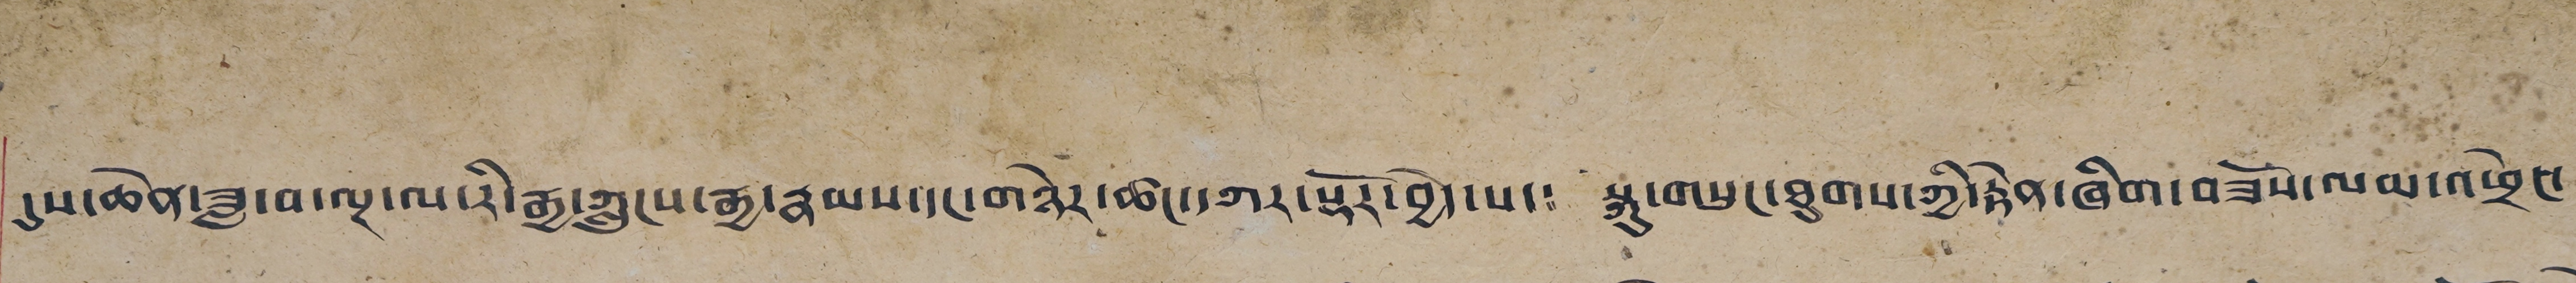དུས་ཆེན་ཟླ་བ་ལྔ་ལ་རི་རྒྱ་ཀླུངས་རྒྱ་རྣམས་དང་གཉེར་ཚང་དཀར་སྟོར་བྱེད་པ་༴ སྐུ་གསུང་ཐུགས་གྱི་རྟེན་ཞིག་བཟོས་ལབ་འཕྲེང་
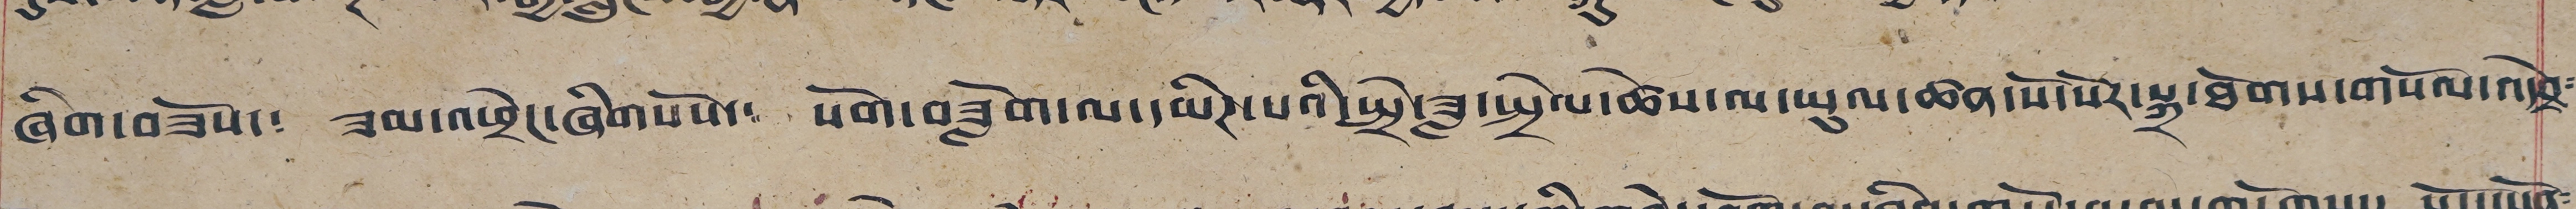ཞིག་བཟོས་༴ ཟམ་འཕྲེང་ཞིགས་པོ་༴ སོག་བཟློག་ལ་དམིཊ་པའི་སྤྲེ་ཟླ་སྤྲེལ་ཚེས་ལ་ཡུལ་ཚན་སོ་སོར་སྐྲུ་ཐོགས་གསོལ་འདེབས༴
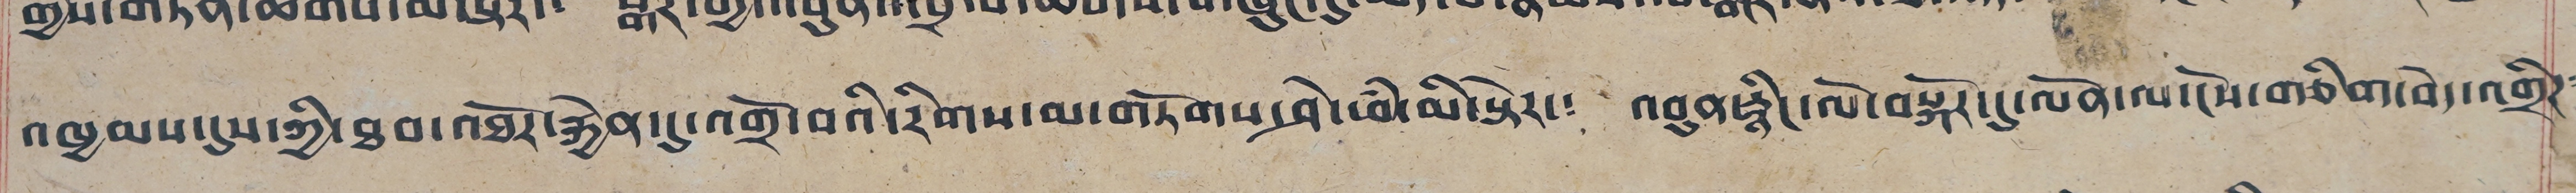འཁྱམས་དུས་ཀྱི་ཐབ་འཐོར་རྐྱེན་དུ་འགྲོ་བའི་རིགས་མ་གཏོགས་ཤེ་ཕཾ་མི་སྟེར་༴ འབུན་རྙིང་ལོ་བསྐོར་དུ་ལོན་ལ་ངེས་གཅིག་བེད་འགྲིཊ༴
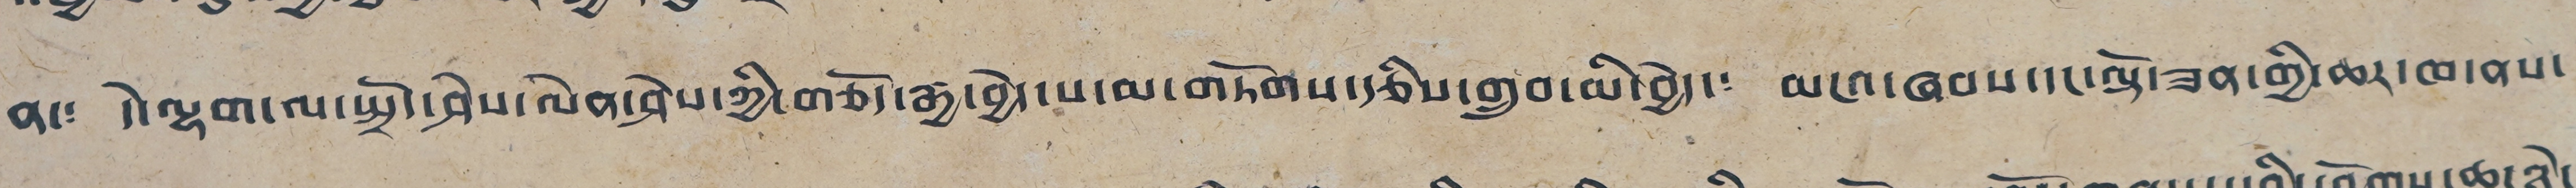ན་༴ དེ་ལྷག་ལ་སྤྲོ་ཤེས་ལེན་ཤེས་ཀྱི་གཅོད་རྒྱ་བྱེད་པ་མ་གཏོགས་རྩིས་གྲུབ་མི་བྱེད་༴ མངའ་ཞབས་དང་ལྷོ་ཟན་གྱི་ཆར་ཁ་ནས་
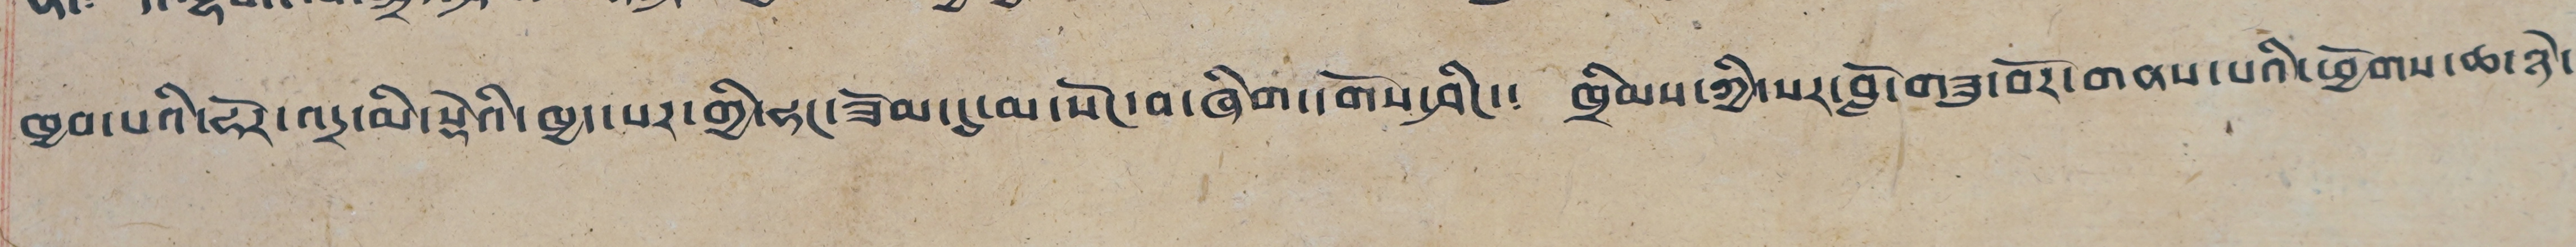ཁྱབ་པའི་ཧོར་འདྲ་མི་སྡེའི་ཁྱ་པར་གྱི་ཧང་ཟོམ་དུ་མ་སོང་བ་ཞིག་དགོས་ཤིང་༴ ཁྲིསས་ཀྱི་སར་བློ་བཟུ་བོར་གནས་པའི་ཕྱོགས་ཆ་ཉེ་
